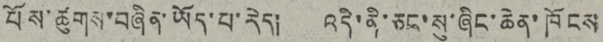པོས་ཚུགས་བཞིན་ཡོད་པ་རེད། འདི་ནི་ཅང་སུ་ཞིང་ཆེན་ཁོངས
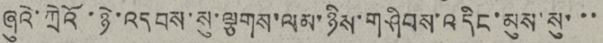ཞུའེ་ཀྲེའོ་ཉེ་འདབས་སུ་ལྕགས་ལམ་ཉིས་གཤིབས་འདིང་མུས་སུ་་་
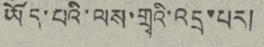ཡོད་པའི་ལས་གྲྭའི་འདྲ་པར།
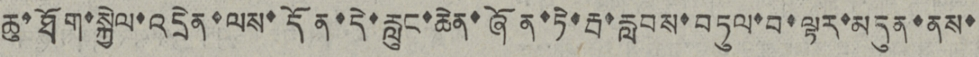ཆུ་ཐོག་སྐྱེལ་འདྲེན་ལས་དོན་དེ་རླུང་ཆེན་ཞོན་ཏེ་རྦ་རླབས་བཏུལ་བ་ལྟར་མདུན་ནས་
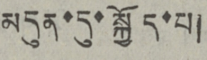མདུན་དུ་སྐྱོད་པ།
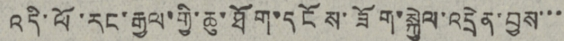འདི་ལོ་རང་རྒྱལ་གྱི་ཆུ་ཐོག་དངོས་ཟོག་སྐྱེལ་འདྲེན་བྱས་་་
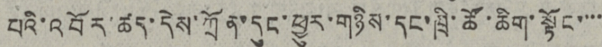པའི་འབོར་ཚད་དེས་ཀྲོན་དུང་ཕྱུར་གཉིས་དང་ཁྲི་ཚོ་ཆིག་སྟོང་་་་
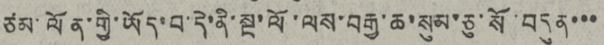ཙམ་ལོན་གྱི་ཡོད་པ་དེ་ནི་སྔ་ལོ་ལས་བརྒྱ་ཆ་སུམ་ཅུ་སོ་བདུན་་་
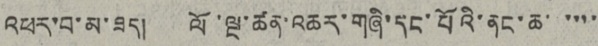འཕར་བ་མ་ཟད། ལོ་ལྔ་ཚན་འཆར་གཞི་དང་པོའི་ནང་ཆ་་་་་་
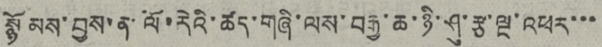སྙོམས་བྱས་ན་ལོ་རེའི་ཚད་གཞི་ལས་བརྒྱ་ཆ་ཉི་ཤུ་རྩ་ལྔ་འཕར་་་
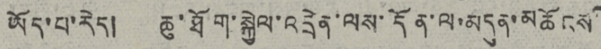ཡོད་པ་རེད། ཆུ་ཐོག་སྐྱེལ་འདྲེན་ལས་དོན་ལ་མདུན་མཆོངས་
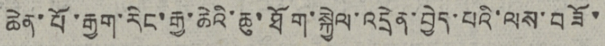ཆེན་པོ་རྒྱག་རེང་རྒྱ་ཆེའི་ཆུ་ཐོག་སྐྱེལ་འདྲེན་བྱེད་པའི་ལས་བཟོ་
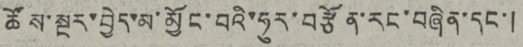ཚོས་སྔར་བྱེད་མ་མྱོང་བའི་ཧུར་བརྩོན་རང་བཞིན་དང་།
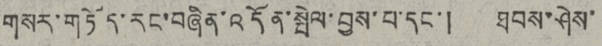གསར་གཏོད་རང་བཞིན་འདོན་སྤེལ་བྱས་པ་དང་། ཐབས་ཤེས་
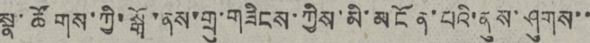སྣ་ཚོགས་ཀྱི་སྒོ་ནས་གྲུ་གཟིངས་ཀྱིས་མི་མངོན་པའི་ནུས་ཤུགས་་
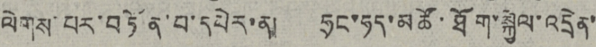ལེགས་པར་བཏོན་པ་དཔེར་ན། ཧྲང་ཧད་མཚོ་ཐོག་སྐྱེལ་འདྲེན་
